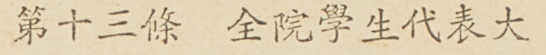第十三條 全院學生代表大
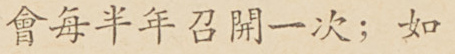會每半年召開一次；如
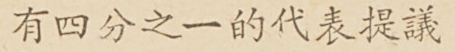有四分之一的代表提議
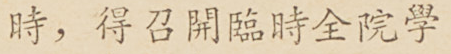時，得召開臨時全院學
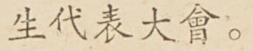生代表大會。
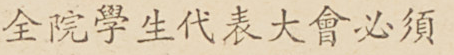全院學生代表大會必須
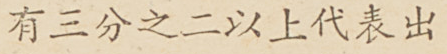有三分之二以上代表出
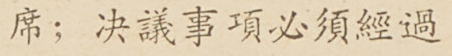席；決議事項必須經過
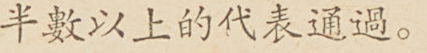半數以上的代表通過。
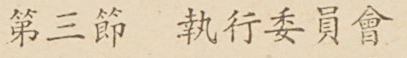第三節 執行委員會
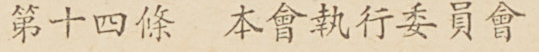第十四條 本會執行委員會
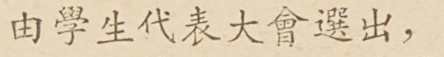由學生代表大會選出，
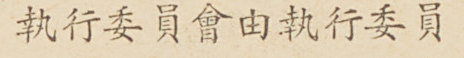執行委員會由執行委員
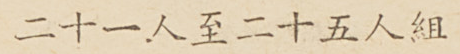二十一人至二十五人組
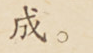成。
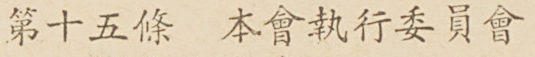第十五條 本會執行委員會
